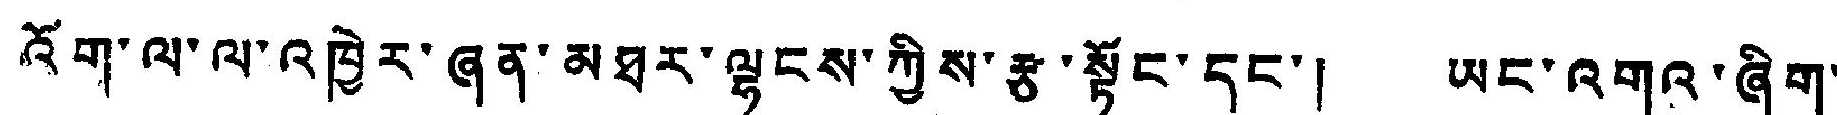འོག་ལ་ལ་འཁྱེར་ཞན་མཐར་ལྷུངས་ཀྱིས་རྩ་སྟོང་དང་། ཡང་འགའ་ཞིག་
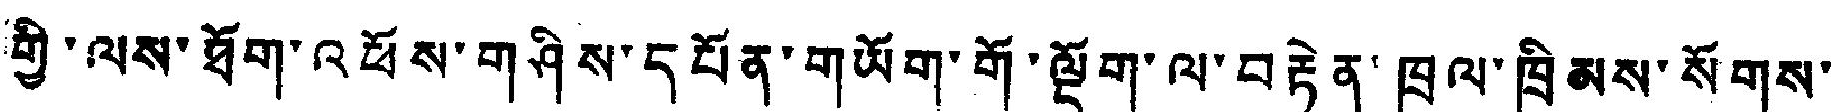གྱི་ལས་ཐོག་འཕོས་གཤིས་དཔོན་གཡོག་གོ་ལྡོག་ལ་བརྟེན་ཁྲལ་ཁྲིམས་སོགས་
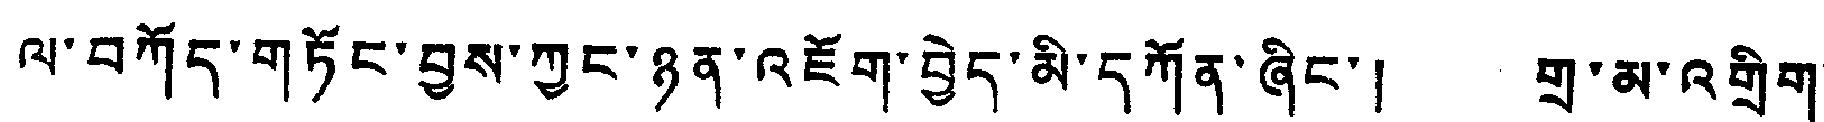ལ་བཀོད་གཏོང་བྱས་ཀྱང་ཉན་འཇོག་བྱེད་མི་དཀོན་ཞིང་། གྲ་མ་འགྲིག་
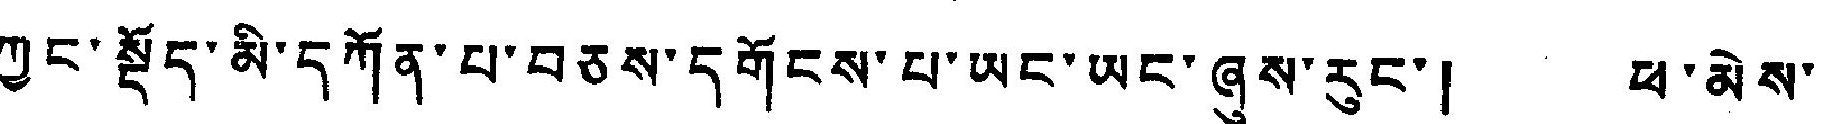ཀྱང་སྡོད་མི་དཀོན་པ་བཅས་དགོངས་པ་ཡང་ཡང་ཞུས་རུང་། ཕ་མེས་
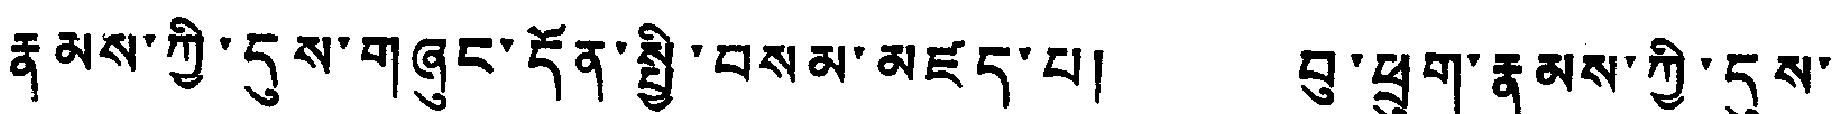རྣམས་ཀྱི་དུས་གཞུང་དོན་སྤྱི་བསམ་མཛད་པ། བུ་ཕྲུག་རྣམས་ཀྱི་དུས་
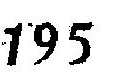195
